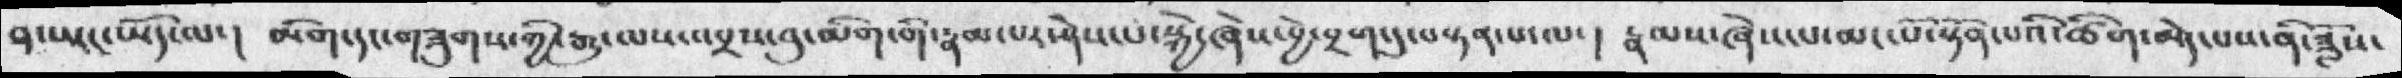ན་ཡང་ཡོད་ལ་། མིག་དང་གཟུགས་གྱི་རྒྱུ་ལས་འབྲས་བུ་མིག་གི་རྣམ་པར་ཤེས་པ་སྐྱེ་ཞེས་བྱེ་བྲག་དུ་བསྟན་པ་ལ་ །  རྣམས་ཞེས་པ་མང་པོ་སྟོན་པའི་ཚིག་མེད་པས་ནི་ཟློས་
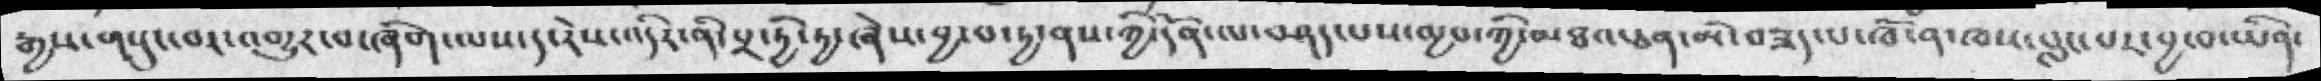རྒྱས་གསུང་བར་འགྱུར་བ་ཞིག་ལས་ད་རེས་འདིར་ནི་པྲ་ཏི་ཏྱ་ཞེས་བྱ་བ་ཏྱ་ནས་ཀྱི་དོན་ལ་བཤད་པས་མྱབ་ཀྱི་མཐའ་ཅན་མི་བཟད་པ་ཁོ་ན་ཁས་བླང་པར་བྱ་བ་ཡིན་
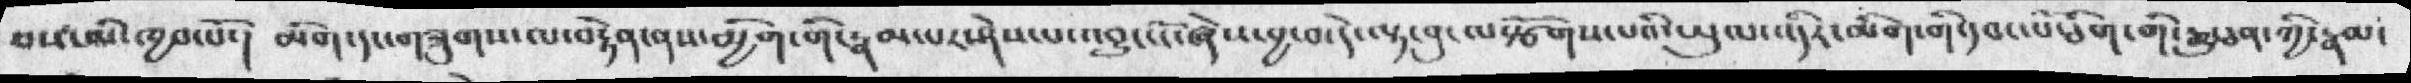པས་མི་ཁྱབ་པོ་། མིག་དང་གཟུགས་ལ་བརྟེན་ནས་མྱིག་གི་རྣམ་པར་ཤེས་པའབྱུང་ངོ་ཞེས་བྱ་བ་དེ་ལྟ་བུ་ལསྩོགས་པའི་ཡུལ་འདིར་མིག་གི་དབང་པོ་ཅིག་གི་ཆུ་ཅན་ཀྱི་རྣམ་
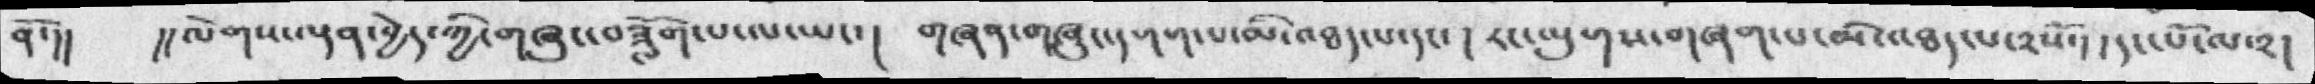ནོ་།།   །། ལེགས་ལྡན་བྱེད་ཀྱི་གཞུང་བཟློག་པ་ལ་ཡང་།   གཞན་གཞུང་དགག་པ་མི་འཐད་པ་དང་ ། རང་ལུགས་གཞག་པ་མི་འཐད་པ་༢སོ་།། དང་པོ་ལ་༢།
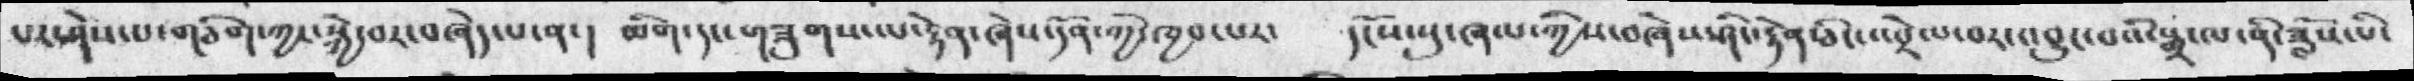པར་ཤེས་པ་གཅིག་ཀྱང་སྐྱེ་བར་བཞེད་པ་ན་།  མིག་དང་གཟུགས་ལ་རྟེན་ཞེས་དོན་ཀྱི་ཁྱབ་པར་    དངོས་སུ་ཞལ་ཀྱིས་བཞེས་ཤིང་རྟེན་ཅིང་འབྲེལ་བར་འབྱུང་བའི་སྒྲ་ལ་ནི་ཟློས་པི་
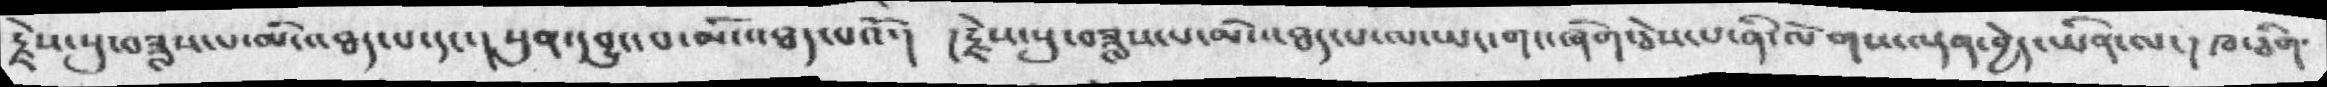རྗེས་སུ་བཟླས་པ་མི་འཐད་པ་དང་།  སུན་དབྱུང་པ་མི་འཐད་པའོ་།   །རྗེས་སུ་བཟླས་པ་མི་འཐད་པ་ལས་ཡང་གང་ཞིག་ཅེས་པ་ནི་ལེགས་ལྡན་བྱེད་ཡིན་ལ་། ཁ་ཅིག་
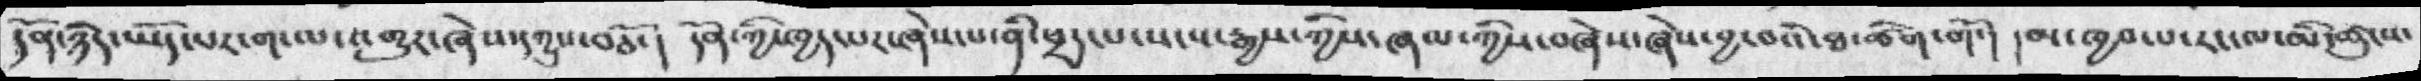དོན་ཉིད་ཡོད་པར་ག་ལ་འགྱུར་ཞེས་དཀྱུས་བཅོ་།  དོན་ཀྱི་ཁྱད་པར་ཞེས་པ་ནི་ཕྲད་པ་སངས་རྒྱས་ཀྱིས་ཞལ་ཀྱིས་བཞེས་ཞེས་བྱ་བའི་ཐ་ཚིག་གོ་།  །མ་ཁྱབ་པ་རང་ལ་མི་མཚུངས་
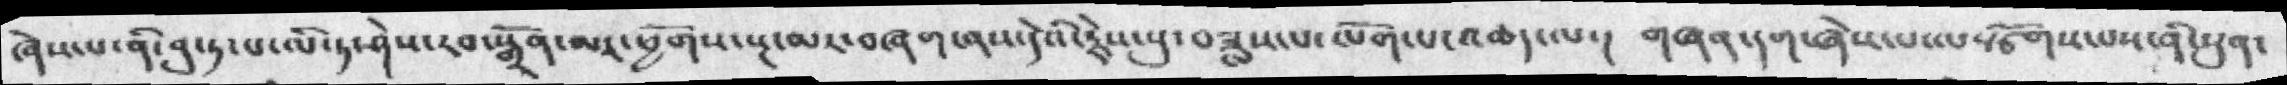ཞེས་པ་ནི་བུ་ཏ་པ་ལི་ཏ་ཤེས་རབ་སྒྲོན་མར་ཕྱོགས་སྔ་མར་བཞག་ནས་དེའི་རྗེས་སུ་བཟླས་པ་ལོག་པ་འཆད་ལ་།   གཞན་དག་ཞེས་པ་ལསྩོགས་པས་ནི་སུན་
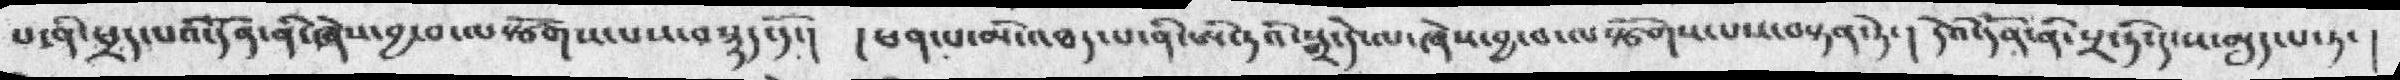པ་ནི་ཕྲད་པའི་དོན་ནི་ཞེས་བྱ་བ་ལསྩོགས་པས་བསྙད་དོ་།  །ཕན་པ་མི་འཐད་པ་ནི་ཨི་ཏའི་དེ་ལ་ཞེས་བྱ་བ་ལསྩོགས་པས་བསྟན་ཏེ་། དེའི་དོན་ནི་སྲ་ཏི་ད་ས་མུད་པ་ཏ་ །
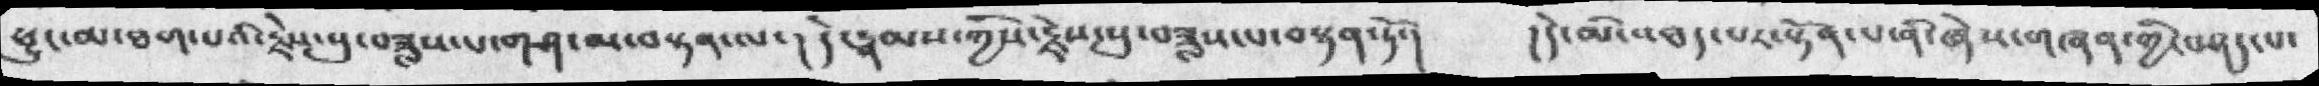ཕུང་མ་ཐག་པའི་རྗེས་སུ་བཟླས་པ་གཤ་མ་བསྟན་ལ་།  དེ་རྣམས་ཀྱིས་རྗེས་སུ་བཟླས་པ་བསྟན་ཏོ་།  །དེ་མི་འཐད་པར་སྟོན་པ་ནི་ཞེས་གཞན་གྱི་བཤད་པ་
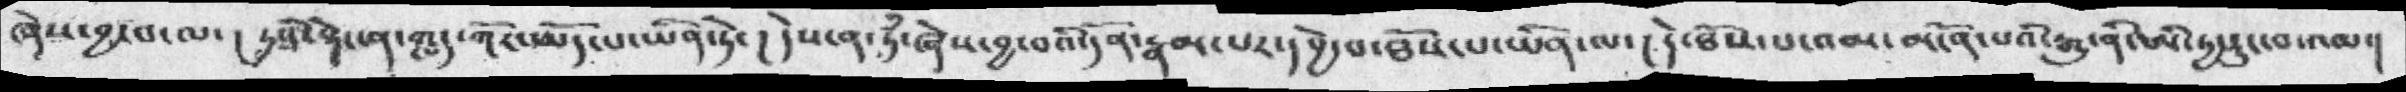ཞེས་བྱ་བ་ལ་།  ཏུ་དེ་སྟེང་ན་གླད་ཀོར་ཡོད་པ་ཡིན་ཏེ་ ། དེས་ན་ཏཾ་ཞེས་བྱ་པའི་དོན་རྣམ་པར་དབྱེ་བ་ཐོས་པ་ཡིན་ལ་།  དེ་ཐོས་པ་འམ་མངོན་པའི་རྒྱུ་ནི་ཨི་ཏྱ་རུང་བ་འམ་།
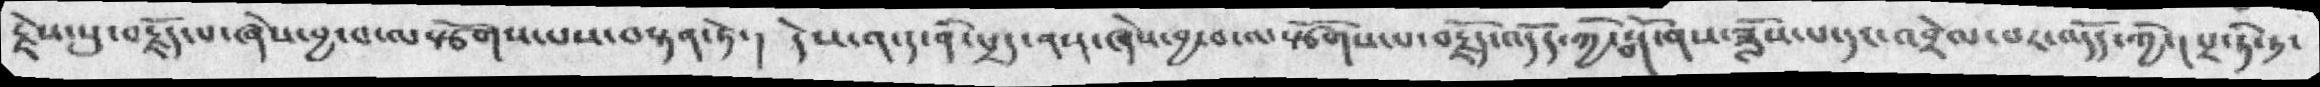རྗེས་སུ་བརྗོད་པ་ཞེས་བྱ་བ་ལསྩོགས་པས་བསྟན་ཏེ་།  དེས་ན་ད་ནི་ཕྲད་ནས་ཞེས་བྱ་བ་ལསྩོགས་པ་བརྗོད་འདོད་ཀྱི་སྒོ་ནས་ཟློས་པ་དང་འབྲེལ་པར་འདོད་ཀྱི་། པྲ་ཏི་ཏ་
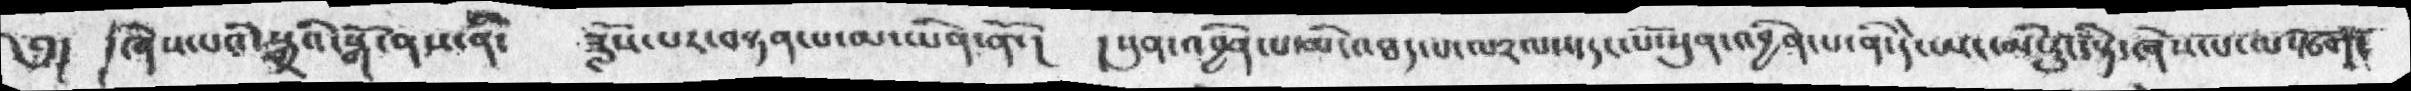༅།    །ཞེས་པའི་སྒྲའི་སྒོ་ནས་ནི་     ཟློས་པར་བསྟན་པ་མ་ཡིན་ནོ་།   །སུན་འབྱིན་པ་མི་འཐད་པ་ལ༢ལས་དང་པོ་སུན་འབྱིན་པ་ནི་དེ་ཡང་མི་རུང་སྟེ་ཞེས་པ་ལསྩོག།
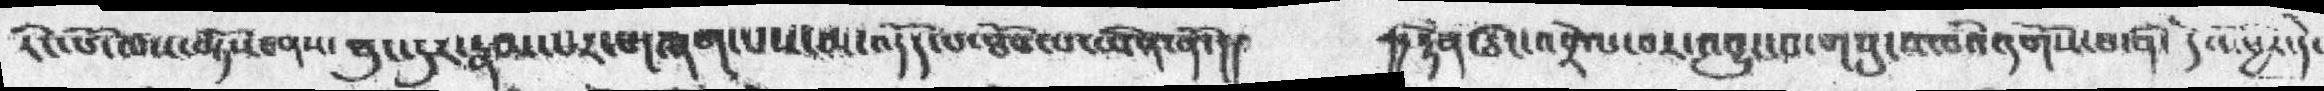རིང་པོ་ལས་ལྟོས་ནས་ཐུང་ངུར་རྣམ་པར་གཞག་པས་མ་འདོད་པ་ཐོབ་པ་ཡིན་ནོ་།།   །།རྟེན་ཅིང་འབྲེལ་བར་འབྱུང་བ་གསུངས་བའི་དགོས་པ་ནི་  དེའི་ཕྱིར་དེ་
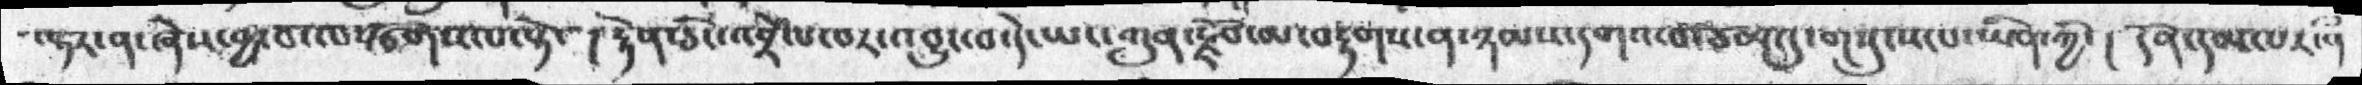ལྟར་ན་ཞེས་བྱ་བ་ལསྩགས་པ་སྟེ་ །རྟེན་ཅིང་འབྲེལ་བར་འབྱུང་བ་དེ་ཡང་ཀུན་རྫོབ་མ་བརྟགས་ན་ཉམས་དགའ་བ་ཙམ་དུ་གསུངས་པ་ཡིན་ཀྱི་། དོན་དམ་པར་ནྀ
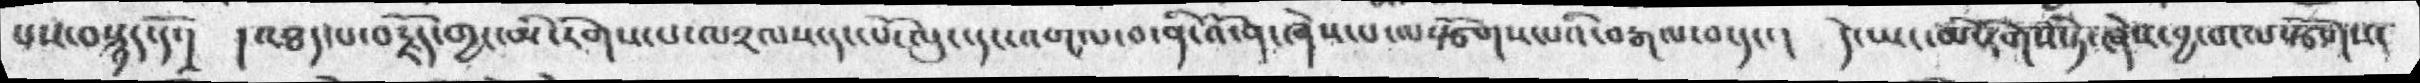པས་བསྙད་དོ་། །འཐད་པ་བརྗོད་གྱང་མི་རིགས་པ་ལ༢ལས་དང་པོ་ལུང་དང་འགལ་བ་ནི་འོ་ན་ཞེས་པ་ལསྩོགས་པའི་བརྒལ་བ་དང་།  དེ་ཡང་མི་རིགས་ཏེ་ཞེས་བྱ་བ་ལསྩོགས་
